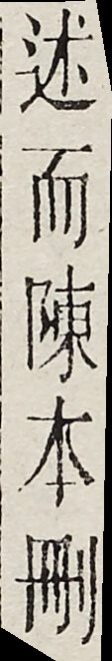述而陳本刪
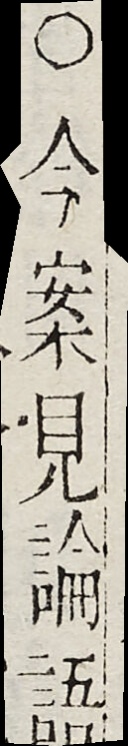○今案見論語
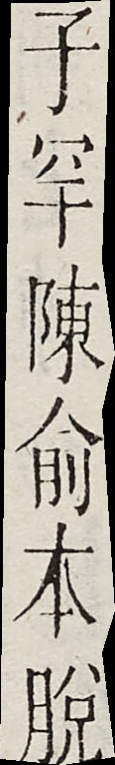子罕陳俞本脫
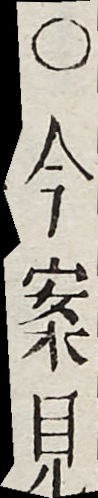○今案見
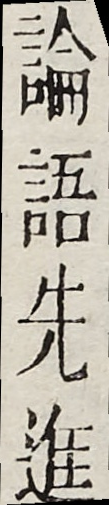論語先進
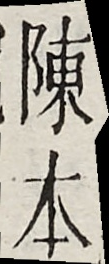陳本
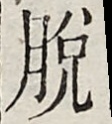脫
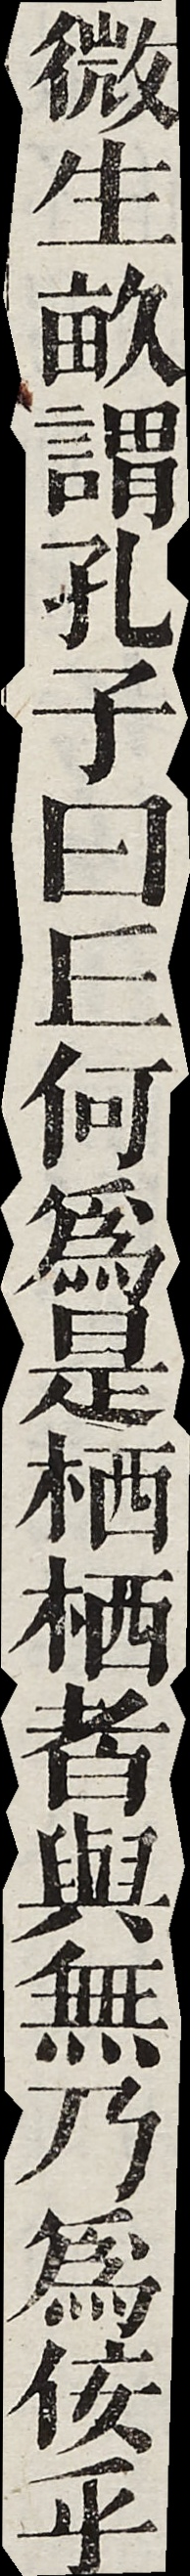微生畝謂孔子曰丘何為是栖栖者與無乃為佞乎
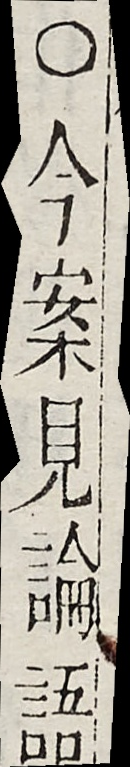○今案見論語憲問陳俞本脫君子之道焉可誣也○今案見論語子張陳本俞本脫非敢為佞○今案見論語
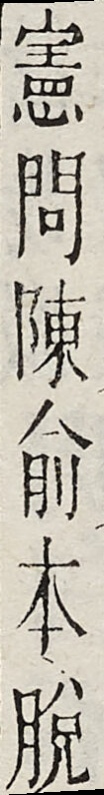憲問陳俞本脫
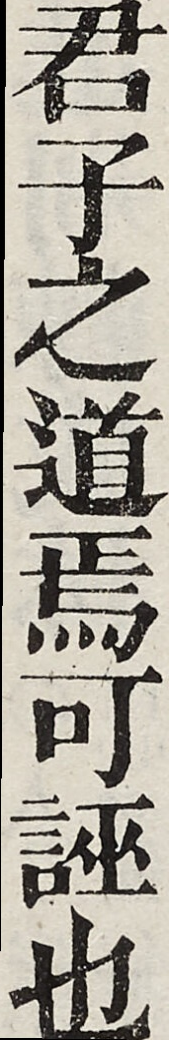君子之道焉可誣也
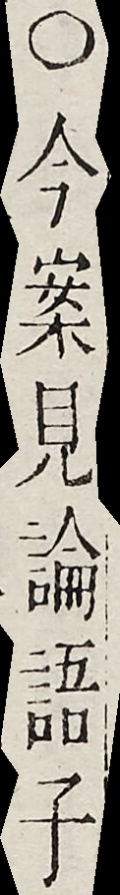○今案見論語子
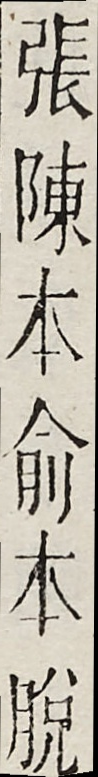張陳本俞本脫
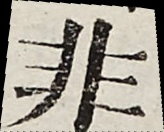非
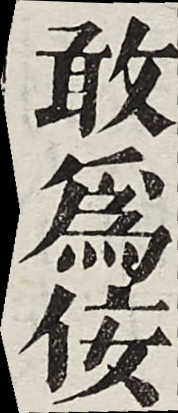敢為佞
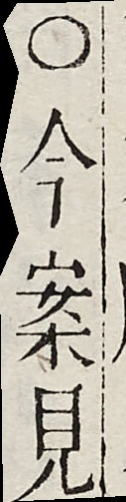○今案見
